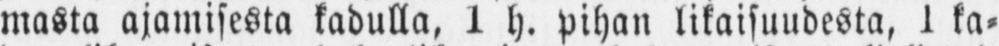masta ajamisesta kadulla, 1 h. pihan likaisuudesta, 1 ka-
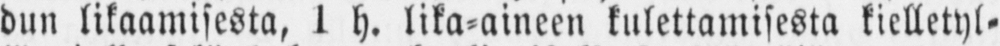dun likaamisesta, 1 h. lika-aineen kulettamisesta kielletyl-
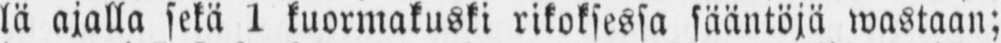lä ajalla sekä 1 kuormakuski rikoksessa sääntöjä wastaan;
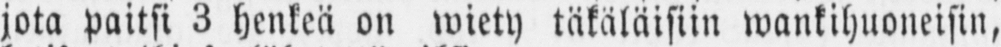jota paitsi 3 henkeä on wiety täkäläisiin wankihuoneisin,
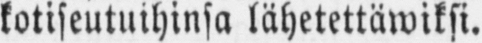kotiseutuihinsa lähetettäwiksi.
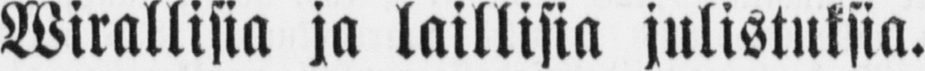Wirallisia ja laillisia julistuksia.
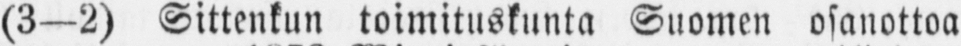(3—2) Sittenkun toimituskunta Suomen osanottoa
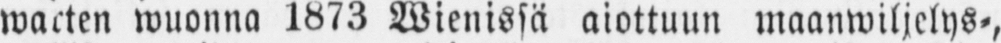warten wuonna 1873 Wienissä aiottuun maanwiljelys-,
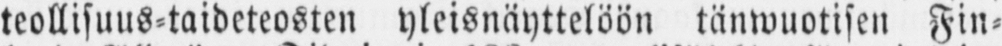teollisuus-taideteosten yleisnäyttelöön tänwuotisen Fin-
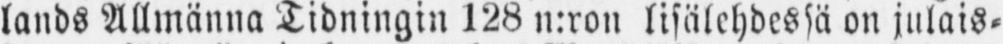lands Allmänna Tidningin 128 n:ron lisälehdessä on julais-
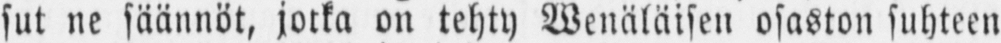sut ne säännöt, jotka on tehty Wenäläisen osaston suhteen
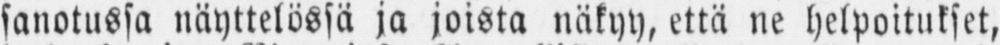sanotussa näyttelössä ja joista näkyy, että ne helpoitukset,
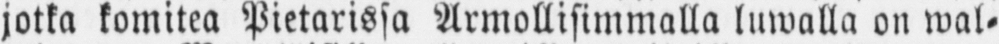jotka komitea Pietarissa Armollisimmalla luwalla on wal-
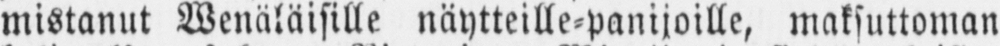mistanut Wenäläisille näytteille-panijoille, maksuttoman
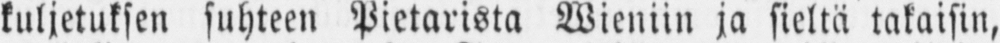kuljetuksen suhteen Pietarista Wieniin ja sieltä takaisin,
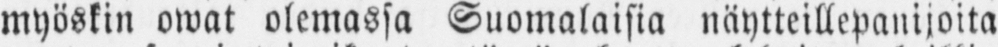myöskin owat olemassa Suomalaisia näytteillepanijoita
